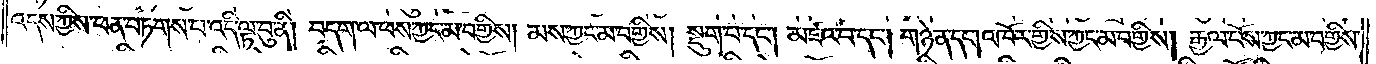འདས་ཀྱིས་ཕན་བཏགས་པ་འདི་ལྟ་བུ་ནི། བདག་ལ་ཕས་ཀྱང་མ་བགྱིས། མས་ཀྱང་མ་བགྱིས། སྡུག་པ་དང༌། མཛའ་བ་དང༌། གཉེན་དང༌། འཁོར་གྱིས་ཀྱང་མ་བགྱིས། རྒྱལ་པོས་ཀྱང་མ་བགྱིས་
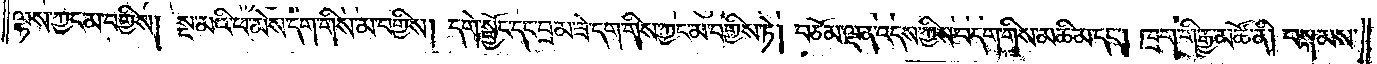ལྷས་ཀྱང་མ་བགྱིས། སྔ་མའི་ཕ་མེས་དག་གིས་མ་བགྱིས། དགེ་སྦྱོང་དང་བྲམ་ཟེ་དག་གིས་ཀྱང་མ་བགྱིས་ཏེ། བཅོམ་ལྡན་འདས་ཀྱིས་བདག་གིས་མཆི་མ་དང༌། ཁྲག་གི་རྒྱ་མཚོ་ནི། བསྐམས་
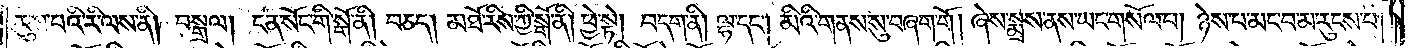རུས་པའི་རི་ལས་ནི། བསྒྲལ། ངན་སོང་གི་སྒོ་ནི། བཅད། མཐོ་རིས་ཀྱི་སྒོ་ནི། ཕྱེ་སྟེ། བདག་ནི། ལྷ་དང༌། མིའི་གནས་སུ་བཞག་གོ །ཞེས་སྨྲས་ནས་ཡང་གསོལ་པ། ཉེས་པ་མང་བ་མ་རུངས་པ།
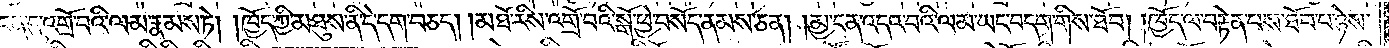ངན་དུ་འགྲོ་བའི་ལམ་རྣམས་ཏེ། །ཁྱོད་ཀྱི་མཐུས་ནི་དེ་དག་བཅད། མཐོ་རིས་འགྲོ་བའི་སྒོ་ཕྱེ་བསོད་ནམས་ཅན། །མྱ་ངན་འདའ་བའི་ལམ་ཡང་བདག་གིས་ཐོབ། །ཁྱོད་ལ་བརྟེན་པས་ཐོབ་པ་ཉེས་
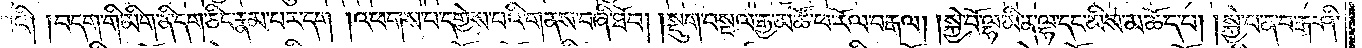བྲལ་བའི། བདག་གི་མིག་ནི་དག་ཅིང་རྣམ་པར་དག །འཕགས་པ་དགྱེས་པའི་གནས་བཞི་ཐོབ། །སྡུག་བསྔལ་རྒྱ་མཚོ་ཕ་རོལ་བརྒལ། །སྐྱེ་བོ་ལྷ་མིན་ལྷ་དང་མིས་མཆོད་པ། །སྐྱེ་བ་ན་བ་རྒ་ཤི་
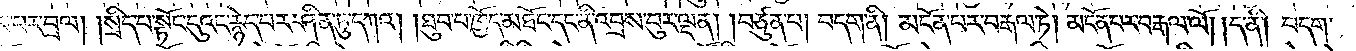རྣམ་པར་བྲལ། །སྲིད་པ་སྟོང་དུའང་རྙེད་པར་ཤིན་ཏུ་དཀའ། །ཐུབ་པ་ཁྱོད་མཐོང་དང་ནི་འབྲས་བུར་ལྡན། །བཙུན་པ། བདག་ནི། མངོན་པར་བརྒལ་ཏེ། མངོན་པར་བརྒལ་ལོ། །ད་ནི། བདག་
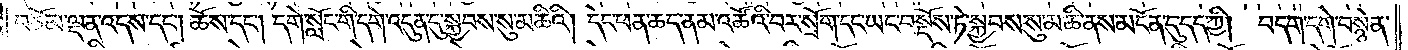བཅོམ་ལྡན་འདས་དང༌། ཆོས་དང༌། དགེ་སློང་གི་དགེ་འདུན་དུ་སྐྱབས་སུ་མཆིའི། དེང་ཕན་ཆད་ནམ་འཚོའི་བར་སྲོག་དང་ཡང་བསྔོས་ཏེ་སྐྱབས་སུ་མཆི་ནས་མངོན་དུ་དད་ཀྱི། བདག་དགེ་བསྙེན་
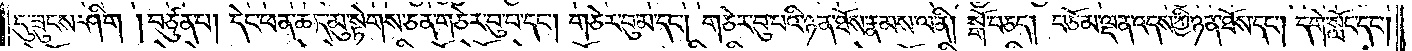དུ་ཟུངས་ཤིག །བཙུན་པ། དེང་ཕན་ཆད་མུ་སྟེགས་ཅན་གཅེར་བུ་པ་དང༌། གཅེར་བུ་མ་དང༌། གཅེར་བུ་པའི་ཉན་ཐོས་རྣམས་ལ་ནི། སྒོ་བཅད། བཅོམ་ལྡན་འདས་ཀྱི་ཉན་ཐོས་དང༌། དགེ་སློང་དང༌།
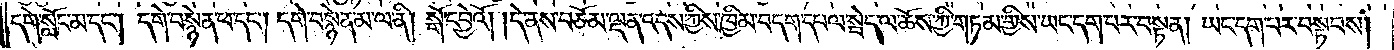དགེ་སློང་མ་དང༌། དགེ་བསྙེན་ཕ་དང༌། དགེ་བསྙེན་མ་ལ་ནི། སྒོ་དབྱེའོ། །དེ་ནས་བཅོམ་ལྡན་འདས་ཀྱིས་ཁྱིམ་བདག་དཔལ་སྦེད་ལ་ཆོས་ཀྱི་གཏམ་གྱིས་ཡང་དག་པར་བསྟན། ཡང་དག་པར་བསྟབས།
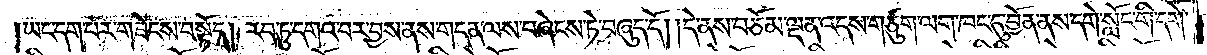ཡང་དག་པར་གཟེངས་བསྟོད། རབ་ཏུ་དགའ་བར་བྱས་ནས་གདན་ལས་བཞེངས་ཏེ་བཞུད་དོ། །དེ་ནས་བཅོམ་ལྡན་འདས་གཙུག་ལག་ཁང་དུ་བྱོན་ནས་དགེ་སློང་གི་དགེ་
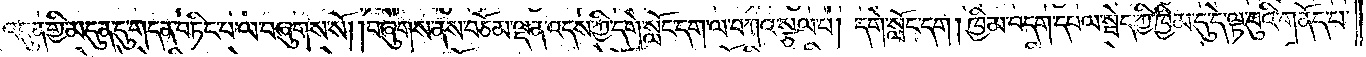འདུན་གྱི་མདུན་དུ་གདན་བཏིང་པ་ལ་བཞུགས་སོ། །བཞུགས་ནས་བཅོམ་ལྡན་འདས་ཀྱི་དགེ་སློང་དག་ལ་བཀའ་སྩལ་པ། དགེ་སློང་དག །ཁྱིམ་བདག་དཔལ་སྦེད་ཀྱི་ཁྱིམ་དུ་དེ་ལྟ་བུའི་གནོད་པ་
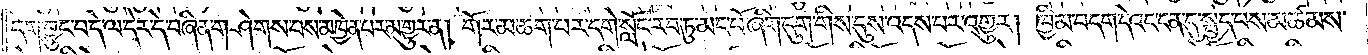དག་བྱུང་བ་དེ་ལ་དེར་དེ་བཞིན་གཤེགས་པས་མཁྱེན་པར་མ་གྱུར་ན། གོར་མ་ཆག་པར་དགེ་སློང་རབ་ཏུ་མང་པོ་ཞིག་དུག་གིས་དུས་འདས་པར་འགྱུར། ཁྱིམ་བདག་དེའང་ངན་དུ་སྤྱད་པས་མཚམས་
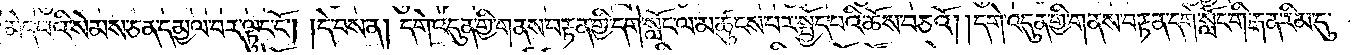མེད་པའི་སེམས་ཅན་དམྱལ་བར་ལྟུང་ངོ༌། །དེ་བས་ན། དགེ་འདུན་གྱི་གནས་བརྟན་གྱི་དགེ་སློང་ལ་མཚུངས་པར་སྤྱོད་པའི་ཆོས་བཅའོ། །དགེ་འདུན་གྱི་གནས་བརྟན་དགེ་སློང་གི་རྒན་རིམ་དུ་
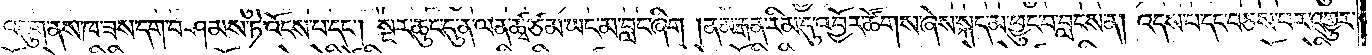འདུག་ནས་ཁ་ཟས་དག་བཤམས་ཏེ་འོངས་པ་དང༌། སྔར་ཆུང་དུ་ན་ལན་ཚྭ་ཙམ་ཡང་མ་བླང་ཞིག། ནམ་རྒན་རིམ་དུ་འབྱོར་ཚོགས་ཞེས་སྐད་མ་ཕྱུང་བ་བླངས་ན། འདས་པ་དང་བཅས་པར་འགྱུར་
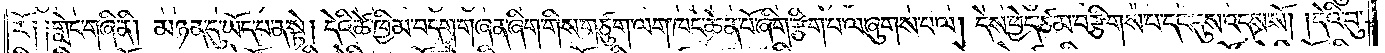རོ༑ ༑གླེང་གཞི་ནི། མཉན་དུ་ཡོད་པ་ན་སྟེ། དེའི་ཚེ་ཁྱིམ་བདག་གཞན་ཞིག་གིས་གཙུག་ལག་ཁང་ཆེན་པོ་ཞིག་རྩིག་པ་ལ་ཞུགས་པ་ལ། དེས་ཕྱེད་ཙམ་བརྩིགས་པ་དང་དུས་འདས་སོ། །དེའི་བུ་
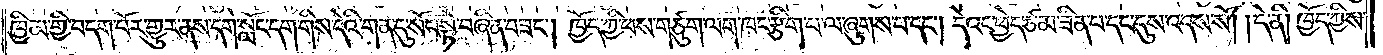ཁྱིམ་གྱི་བདག་པོར་གྱུར་ནས་དགེ་སློང་དག་གིས་དེའི་གན་དུ་སོང་སྟེ་བཞིན་བཟང༌། ཁྱོད་ཀྱི་ཕས་གཙུག་ལག་ཁང་རྩིག་པ་ལ་ཞུགས་པ་དང༌། དེའང་ཕྱེད་ཙམ་ཟིན་པ་དང་དུས་འདས་སོ། །དེ་ནི། ཁྱོད་ཀྱིས་
